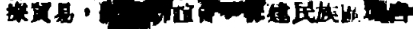療貿易，民族聯誼會，構建民族區域自
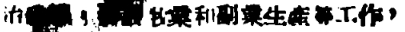治政權，發展牧業和副業生產等工作，
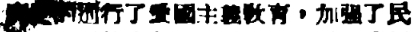普遍的進行了愛國主義敎育，加強了民
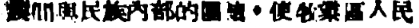族間與民族內部的團結，使牧業區人民
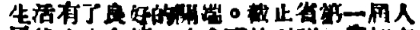生活有了良好的開端。截止省第一屆人
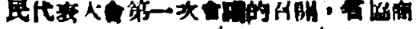民代表大會第一次會議的召開，省協商
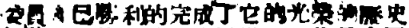委員會已勝利的完成了它的光榮的歷史
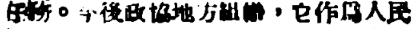任務。今後政協地方組織，它作爲人民
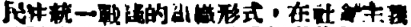民主統一戰綫的組織形式，在社會主義
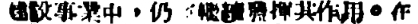建設事業中，仍在繼續發揮其作用。在
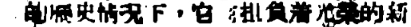新的歷史情況下，它將担負着光榮的新
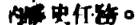的歷史任務。
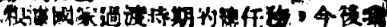根據國家過渡時期的總任務，今後我
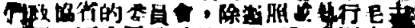們政協省的委員會，除遵照並執行毛主
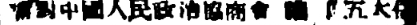席對中國人民政治協商會 議「五大任
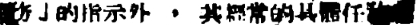務」的指示外 ，其經常的具體任務就
